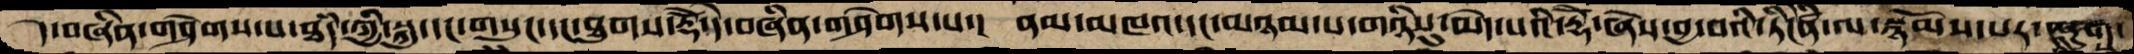དེ་བཞིན་གཤེགས་པ་ཐཾད་ཀྱི་སྐུ་དང་གསུང་དང་ཐུགས་རྡོེ་དེ་བཞིན་གཤེགས་པ་།  ནམ་མཁའ་དང་མཉམ་པ་གཉིསུ་མེད་པའི་རྡོེ་ཞེས་བྱ་བའི་ཏིངེཛིན་ལ་སྙོམས་པར་ཞུགས་
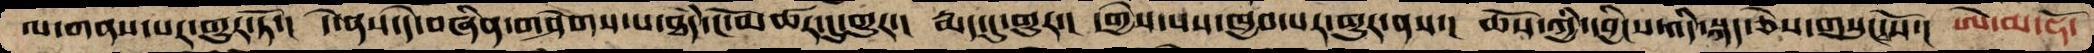ལ་གནས་པར་གྱུར་ཏོ་།  དེ་ནས་དེ་བཞིན་གཤེགས་པ་ཐཾད་ངོ་མཚར་དུ་གྱུར་།  རྨད་དུ་གྱུར་།  དགྱེས་པས་ཁྱབ་པར་གྱུར་ནས་།  ཆོས་ཀྱི་དབྱིངས་འདི་སྐད་ཅེས་གསུངསོ་།  ཨེ་མ་ཧོ་
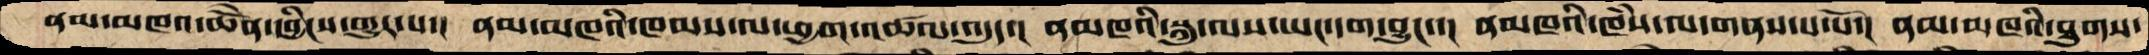ནམ་མཁའ་ཆེནོ་དབྱིངས་གྱུར་པ་།  ནམ་མཁའི་ཁམས་ལ་ཕྱག་འཚལ་འདུད་།  ནམཁའི་སྐུ་ལས་ཡང་དག་བྱུང་་།  ནམཁའི་ཁཾས་ལ་གནས་པ་པོ་།  ནམ་མཁའི་ཐུགས་
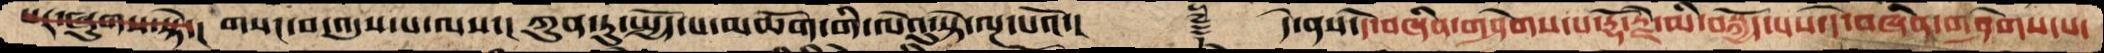པར་ཞུགས་སྟེ་།  གསང་བ་འདུས་པ་ལས་། ཀུན་ཏུ་སྤྱོད་པ་མཆོག་གི་ལེའུ་སྟེ་ལྔ་པའོ་།   ༈  ད་ེནས་དེ་བཞིན་གཤེགས་པ་རྡོ་རྗེ་མི་བསྐྱོད་པས་དེ་བཞིན་གཤེགས་པ་
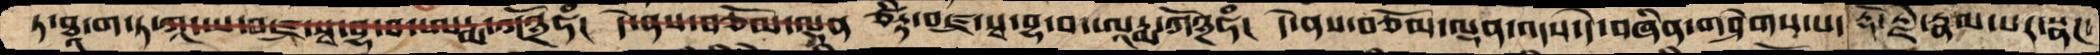ཏ་ཐཱ་ག་ཏ་ཀཱ་ཡ་བཛྲ་སྭ་བྷ་བ་ཨརྨ་ཀོ྅ཧཾ།  དེ་ནས་བཅོམ་ལྡན ཙིཏྟ་བཛྲ་སྭ་བྷ་བ་ཨཱརྨ་ཀོ྅ཧཾ།  དེ་ནས་བཅོམ་ལྡན་འདས་དེ་བཞིན་གཤེགས་པ་རྡོ་རྗེ་རྣམ་པར་སྣང་
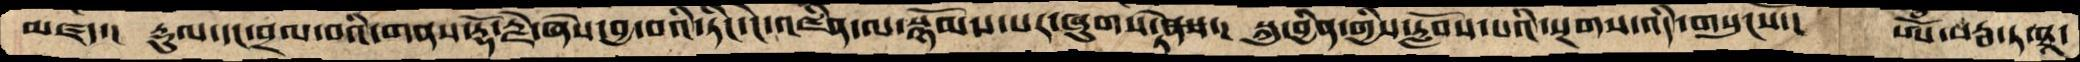མཛད་།  རྡུལ་དང་བྲལ་བའི་གནས་རྡོ་རྗེ་ཞེས་བྱ་བའི་ཏིང་ངེ་འཛིན་ལ་སྙོམས་པར་ཞུགས་ཏེ་ནས་།  སྐུ་བྱིན་གྱིས་རློབས་པའི་སྔགས་འདི་གསུངསོ་།   ཨོཾ་སརྦ་ཏ་ཐཱ་
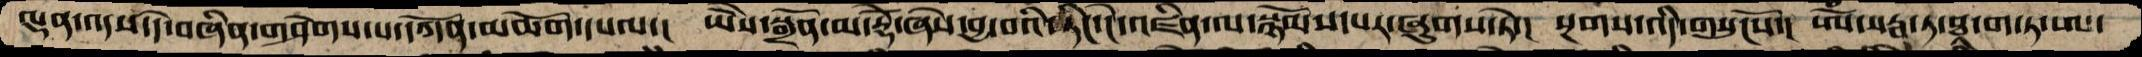ལྡན་འདས་དེ་བཞིན་གཤེགས་པ་དཀོན་མཆོག་དཔལ་།  ཡཻས་སྒྲོན་མ་རྡོེ་ཞེས་བྱ་བའི་ཏིང་ངེ་འཛིན་ལ་སྙོམས་པར་ཞུགས་ཏེ་།  སྔགས་འདི་གསུངསོ་།  ཨོཾ་སརྦ་ཏ་ཐཱ་ག་ཏ་ཨ་
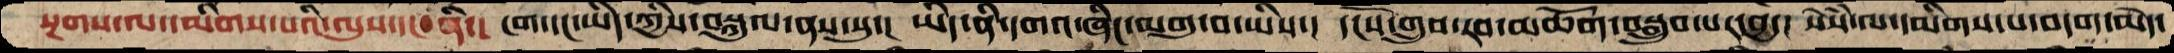སྔགས་ལ་དམིགས་པའི་ལུས་དང་ནི་།  ངག་དང་ཡིད་ཀྱིས་བསྐུལ་ནས་སུ་།   ཡིད་ནི་དགའ་ཞིང་མགུ་བ་ཡིས་།  དངོས་གྲུབ་རབ་མཆོག་བསྒྲུབ་པར་བྱ་།   སེཾས་ལ་དམིགས་པ་བདག་མེད་
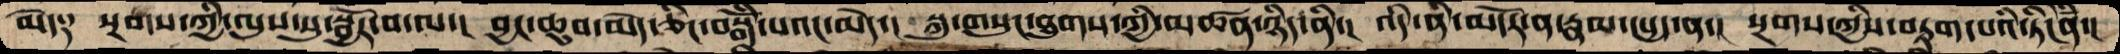མེད༑   སྔགས་ཀྱི་ལུས་སུ་སྦྱོར་བ་ལ་།  བྱང་ཆུབ་མེད་ཅིང་བསྒོཾ་པའང་མེད་།  སྐུ་གསུང་ཐུགས་ཀྱི་མཚན་ཉིད་ནི་།  འདི་ནི་མདོར་ན་རྣམ་དཔྱད་ན་།  སྔགས་ཀྱིས་བརྟག་པའི་ཏིངེཛིན་།
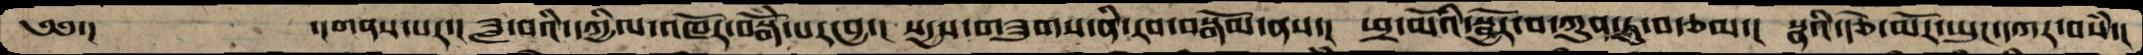༄༅་།   ་།གནས་པར་།  ཟླ་བའི་དཀྱིལ་འཁོར་བསྒོཾ་པར་བྱ་།  སདྱས་གཟུགས་ནི་རབ་བསྒོམ་ནས་།  ཕྲ་མོའི་སྦྱོར་བ་ཀུན་ཏུ་བརྩམ་།  སྣའི་རྩེ་མོར་ཡུང་དཀར་བསཾ་།
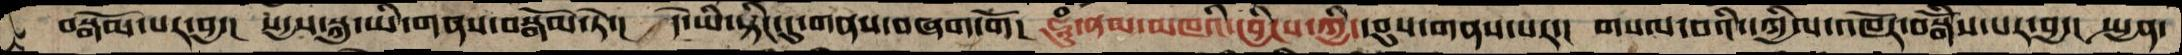བསྒོམ་པར་བྱ་། སདྱས་སྐུ་ཡི་གནས་བསྒོམ་ཏེ་། དེ་ཡི་སྟིང་དུ་གནས་བཞག་གོ། ཧཱུཾ་ནམ་མཁའི་དབྱིངས་ཀྱི་དབུས་གནས་པར་། གསལ་བའི་དཀྱིལ་འཁོར་བསྒོཾས་པར་བྱ་། སྤྱན་
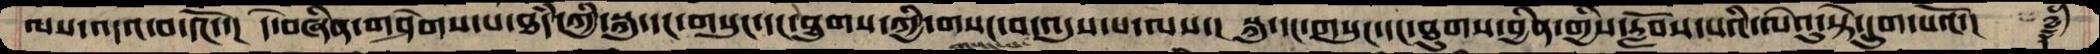ལས་འདའ་བ་དོང་་། དེ་བཞིན་གཤེགས་པ་ཐཾད་ཀྱི་སྐུ་དང་གསུང་དང་ཐུགས་ཀྱི་གསང་བ་གསང་བ་འདུས་པ་ལས་།  སྐུ་དང་གསུང་དང་ཐུགས་བྱིན་གྱིས་རློབས་པའི་ལེའུ་སྟེ་དྲུག་པའོ་།  ༈
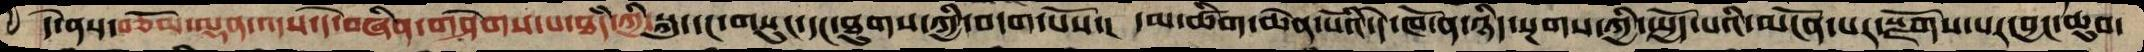དེ་ནས་བཅོམ་ལྡན་འདས་དེ་བཞིན་གཤེགས་པ་ཐཾད་ཀྱི་སྐུ་དང་གསུང་དང་ཐུགས་ཀྱི་བདག་པོས་།  དམ་ཚིག་ཆེན་པོའི་དེ་ཁོ་ན་ཉིད་སྔགས་ཀྱི་སྤྱོད་པའི་མངོན་པར་སྫོགས་པར་བྱང་ཆུབ་
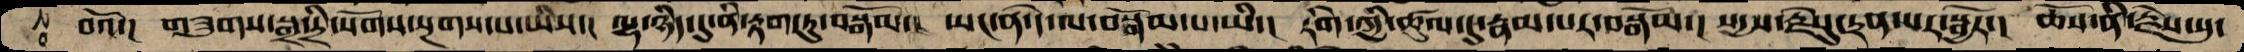བའོ་།  གཟུགས་སྒྲ་དྲི་སོགས་སྔགས་པ་ཡིས་།  ལྷ་ཉིད་དུ་ནི་རྟག་ཏུ་བསྒོམ་།  ཡང་ན་དེ་ལ་བསྒོམ་པ་ཡི་།  རིག་ཀྱི་ཚུལ་དུ་རྣམ་པར་བསྒོམ་།  སདྱས་རྗེསུ་དྲན་པར་སྦྱོར་།  ཆོས་ནི་རྗེས་སུ་
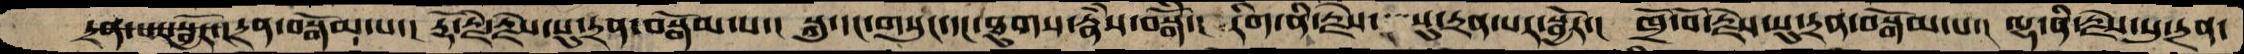དྲན་པར་སྦྱོར་།དྲན་བསྒོམ་པ་།  རྡོ་རྗེ་རྗེས་སུ་དྲན་བསྒོམ་པ་།  སྐུ་དང་གསུང་དང་ཐུགས་རྣཾས་བསྒོཾ་།  རིག་ནི་རྗེས་་་སུ་དྲན་པར་སྦྱོར་།  ཁྲོ་བོ་རྗེས་སུ་དྲན་བསྒོམ་པ་།  ལྷ་ནི་རྗེས་སུ་དྲན་
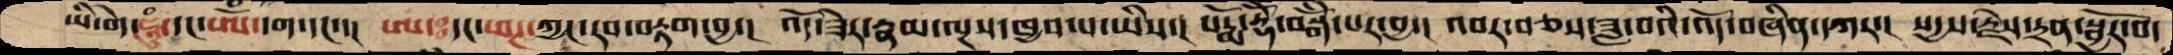ཡི་གེ་ཧཱུཾ་དང་ཨོཾ་དག་དང་་།  ཨཿ་དང་ཕཊ་ཀྱང་རབ་བརྟག་བྱ་།  འདོཟེར་རྣམ་ལྔས་ཁྱབ་པ་ཡིས་།  པདྨོ་རྡོེ་བསྒོཾ་པར་བྱ་།  འབར་བཅས་ཟླ་བའི་འོད་བཞིན་དཀར་།  སདྱས་རྗེས་དྲན་སྦྱོར་བ་
